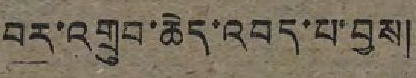བར་འགྲུབ་ཆེད་འབད་པ་བྱས།
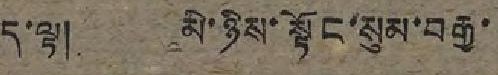ད་ལྟ། མི་ཉིས་སྟོང་སུམ་བརྒྱ་
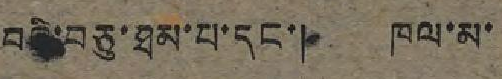བཞི་བཅུ་ཐམ་པ་དང་། ཁལ་མ་
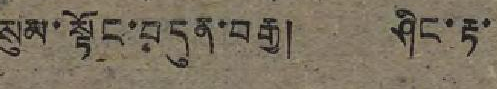སུམ་སྟོང་བདུན་བརྒྱ། ཤིང་རྟ་
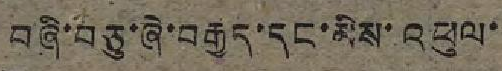བཞི་བཅུ་ཞེ་བརྒྱད་དང་མིས་འཕུལ་
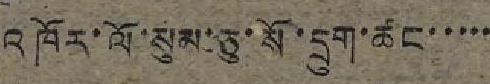འཁོར་ལོ་སུམ་ཅུ་སོ་དྲུག་ཚང་་་་་
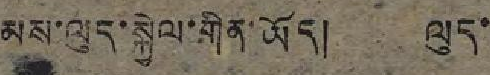མས་ལུད་སྐྱེལ་གིན་ཡོད། ལུད་
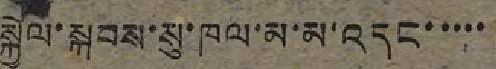སྐྱེལ་སྐབས་སུ་ཁལ་མ་མ་འདང་་་་་
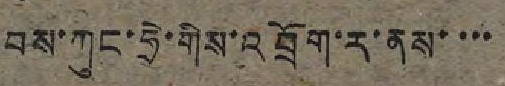བས་ཀུང་ཧྲེ་གིས་འབྲོག་ར་ནས་་་་
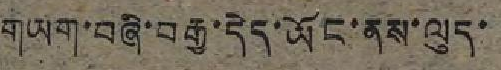གཡག་བཞི་བརྒྱ་དེད་ཡོང་ནས་ལུད་
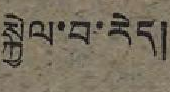སྐྱེལ་བ་རེད།
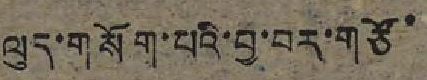ལུད་གསོག་པའི་བྱ་བར་གཙོ་
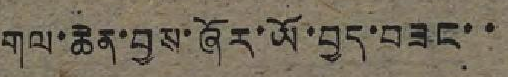གལ་ཆེན་བྱས་ཞོར་ཡོ་བྱད་བཟང་་
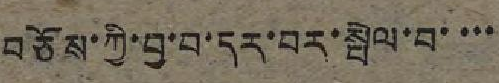བཅོས་ཀྱི་བྱ་བ་དར་བར་སྤེལ་བ་་་་
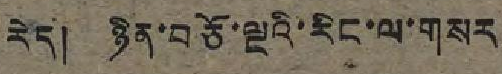རེད། ཉིན་བཅོ་ལྔའི་རིང་ལ་གསར
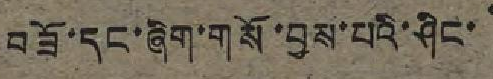བཟོ་དང་ཞིག་གསོ་བྱས་པའི་ཤིང་
